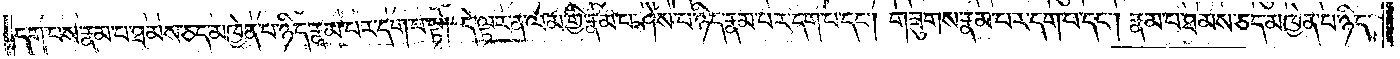དག་པས་རྣམ་པ་ཐམས་ཅད་མཁྱེན་པ་ཉིད་རྣམ་པར་དག་པ་སྟེ། དེ་ལྟར་ན་ལམ་གྱི་རྣམ་པ་ཤེས་པ་ཉིད་རྣམ་པར་དག་པ་དང༌། གཟུགས་རྣམ་པར་དག་པ་དང༌། རྣམ་པ་ཐམས་ཅད་མཁྱེན་པ་ཉིད་
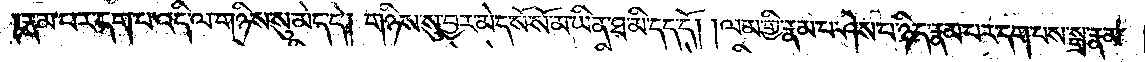རྣམ་པར་དག་པ་འདི་ལ་གཉིས་སུ་མེད་དེ། གཉིས་སུ་བྱར་མེད་སོ་སོ་མ་ཡིན་ཐ་མི་དད་དོ། །ལམ་གྱི་རྣམ་པར་ཤེས་པ་ཉིད་རྣམ་པར་དག་པས་སྒྲ་རྣམ་
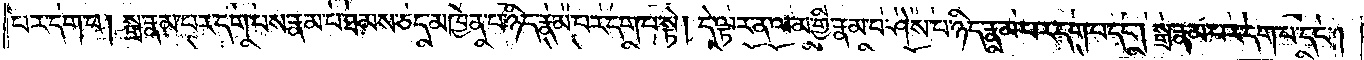པར་དག་པ། སྒྲ་རྣམ་པར་དག་པས་རྣམ་པ་ཐམས་ཅད་མཁྱེན་པ་ཉིད་རྣམ་པར་དག་པ་སྟེ། དེ་ལྟར་ན་ལམ་གྱི་རྣམ་པ་ཤེས་པ་ཉིད་རྣམ་པར་དག་པ་དང༌། སྒྲ་རྣམ་པར་དག་པ་དང༌།
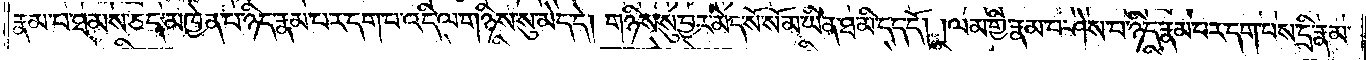རྣམ་པ་ཐམས་ཅད་མཁྱེན་པ་ཉིད་རྣམ་པར་དག་པ་འདི་ལ་གཉིས་སུ་མེད་དེ། གཉིས་སུ་བྱར་མེད་སོ་སོ་མ་ཡིན་ཐ་མི་དད་དོ། །ལམ་གྱི་རྣམ་པ་ཤེས་པ་ཉིད་རྣམ་པར་དག་པས་དྲི་རྣམ་
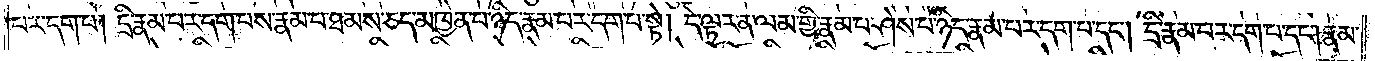པར་དག་པ། དྲི་རྣམ་པར་དག་པས་རྣམ་པ་ཐམས་ཅད་མཁྱེན་པ་ཉིད་རྣམ་པར་དག་པ་སྟེ། དེ་ལྟར་ན་ལམ་གྱི་རྣམ་པ་ཤེས་པ་ཉིད་རྣམ་པར་དག་པ་དང༌། དྲི་རྣམ་པར་དག་པ་དང༌། རྣམ་
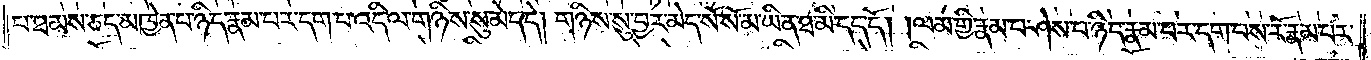པ་ཐམས་ཅད་མཁྱེན་པ་ཉིད་རྣམ་པར་དག་པ་འདི་ལ་གཉིས་སུ་མེད་དེ། གཉིས་སུ་བྱར་མེད་སོ་སོ་མ་ཡིན་ཐ་མི་དད་དོ། །ལམ་གྱི་རྣམ་པ་ཤེས་པ་ཉིད་རྣམ་པར་དག་པས་རོ་རྣམ་པར་
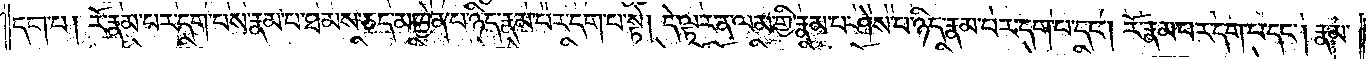དག་པ། རོ་རྣམ་པར་དག་པས་རྣམ་པ་ཐམས་ཅད་མཁྱེན་པ་ཉིད་རྣམ་པར་དག་པ་སྟེ། དེ་ལྟར་ན་ལམ་གྱི་རྣམ་པ་ཤེས་པ་ཉིད་རྣམ་པར་དག་པ་དང༌། རོ་རྣམ་པར་དག་པ་དང༌། རྣམ་
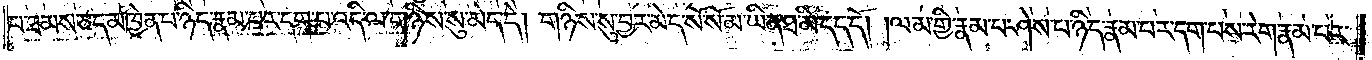པ་ཐམས་ཅད་མཁྱེན་པ་ཉིད་རྣམ་པར་དག་པ་འདི་ལ་གཉིས་སུ་མེད་དེ། གཉིས་སུ་བྱར་མེད་སོ་སོ་མ་ཡིན་ཐ་མི་དད་དོ། །ལམ་གྱི་རྣམ་པ་ཤེས་པ་ཉིད་རྣམ་པར་དག་པས་རེག་རྣམ་པར་
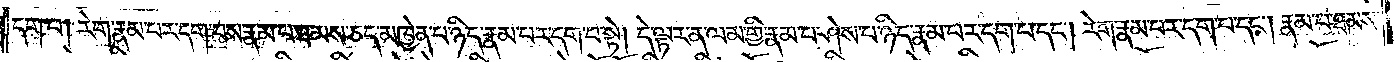དག་པ། རེག་རྣམ་པར་དག་པས་རྣམ་པ་ཐམས་ཅད་མཁྱེན་པ་ཉིད་རྣམ་པར་དག་པ་སྟེ། དེ་ལྟར་ན་ལམ་གྱི་རྣམ་པ་ཤེས་པ་ཉིད་རྣམ་པར་དག་པ་དང༌། རེག་རྣམ་པར་དག་པ་དང༌། རྣམ་པ་ཐམས་
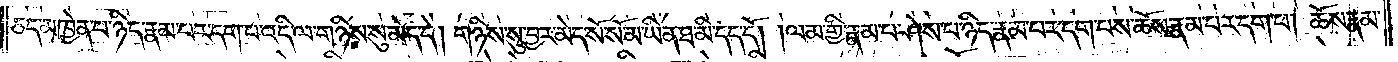ཅད་མཁྱེན་པ་ཉིད་རྣམ་པར་དག་པ་འདི་ལ་གཉིས་སུ་མེད་དེ། གཉིས་སུ་བྱར་མེད་སོ་སོ་མ་ཡིན་ཐ་མི་དད་དོ། །ལམ་གྱི་རྣམ་པ་ཤེས་པ་ཉིད་རྣམ་པར་དག་པས་ཆོས་རྣམ་པར་དག་པ། ཆོས་རྣམ་
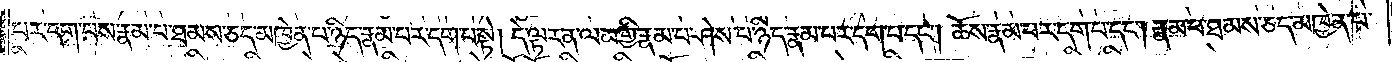པར་དག་པས་རྣམ་པ་ཐམས་ཅད་མཁྱེན་པ་ཉིད་རྣམ་པར་དག་པ་སྟེ། དེ་ལྟར་ན་ལམ་གྱི་རྣམ་པ་ཤེས་པ་ཉིད་རྣམ་པར་དག་པ་དང༌། ཆོས་རྣམ་པར་དག་པ་དང༌། རྣམ་པ་ཐམས་ཅད་མཁྱེན་པ་
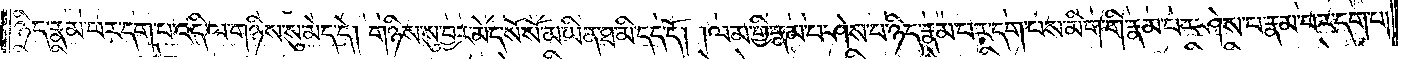ཉིད་རྣམ་པར་དག་པ་འདི་ལ་གཉིས་སུ་མེད་དེ། གཉིས་སུ་བྱར་མེད་སོ་སོ་མ་ཡིན་ཐ་མི་དད་དོ། །ལམ་གྱི་རྣམ་པ་ཤེས་པ་ཉིད་རྣམ་པར་དག་པས་མིག་གི་རྣམ་པར་ཤེས་པ་རྣམ་པར་དག་པ།
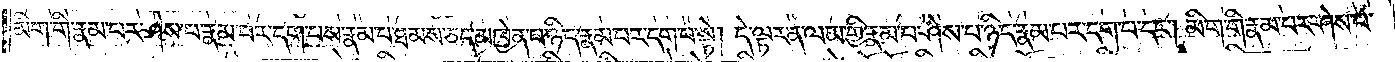མིག་གི་རྣམ་པར་ཤེས་པ་རྣམ་པར་དག་པས་རྣམ་པ་ཐམས་ཅད་མཁྱེན་པ་ཉིད་རྣམ་པར་དག་པ་སྟེ། དེ་ལྟར་ན་ལམ་གྱི་རྣམ་པ་ཤེས་པ་ཉིད་རྣམ་པར་དག་པ་དང༌། མིག་གི་རྣམ་པར་ཤེས་པ་
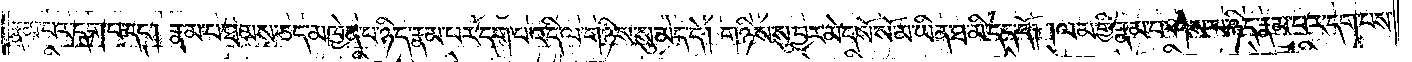རྣམ་པར་དག་པ་དང༌། རྣམ་པ་ཐམས་ཅད་མཁྱེན་པ་ཉིད་རྣམ་པར་དག་པ་འདི་ལ་གཉིས་སུ་མེད་དེ། གཉིས་སུ་བྱར་མེད་སོ་སོ་མ་ཡིན་ཐ་མི་དད་དོ། །ལམ་གྱི་རྣམ་པ་ཤེས་པ་ཉིད་རྣམ་པར་དག་པས་
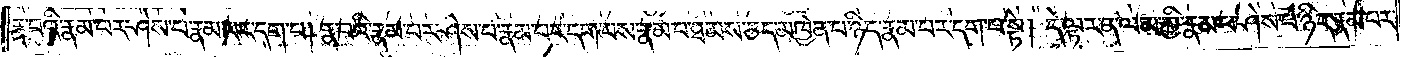རྣ་བའི་རྣམ་པར་ཤེས་པ་རྣམ་པར་དག་པ། རྣ་བའི་རྣམ་པར་ཤེས་པ་རྣམ་པར་དག་པས་རྣམ་པ་ཐམས་ཅད་མཁྱེན་པ་ཉིད་རྣམ་པར་དག་པ་སྟེ། དེ་ལྟར་ན་ལམ་གྱི་རྣམ་པ་ཤེས་པ་ཉིད་རྣམ་པར་
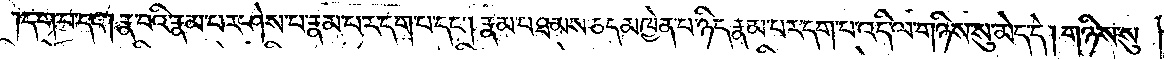དག་པ་དང༌། རྣ་བའི་རྣམ་པར་ཤེས་པ་རྣམ་པར་དག་པ་དང༌། རྣམ་པ་ཐམས་ཅད་མཁྱེན་པ་ཉིད་རྣམ་པར་དག་པ་འདི་ལ་གཉིས་སུ་མེད་དེ། གཉིས་སུ་
